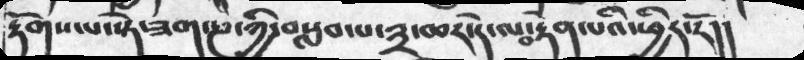རྟོགས་པ་སྟེ་ཟག་ཎ་ཀྱི་བསླབ་པ་༣་ཆར་དེ་ལ་བརྟེན་པའི་ཕྱིར་རོ།།
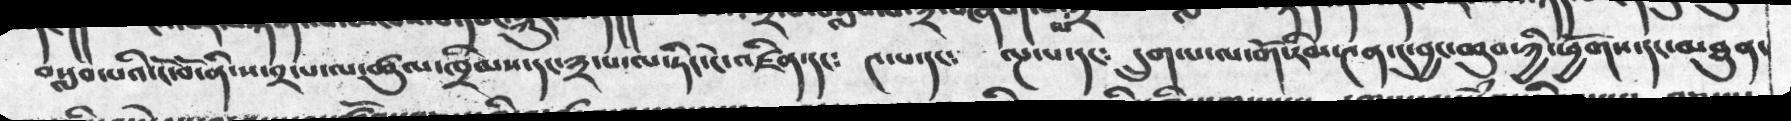བསླབ་པའི་ངོ་བོ་ནི་ས་༢་པ་ལ་ཚུལ་ཁྲིམས་དང་༣་པ་ལཏིང་ངེ་འཛིན་དང༴   ༤་པ་དང༴   ལྔ་པ་དང༴   དྲུག་པ་ལ་གོ་རིམ་༤ན་དུ་བྱང་ཆུབ་ཀྱི་ཕྱོགས་དང་མཐུན་
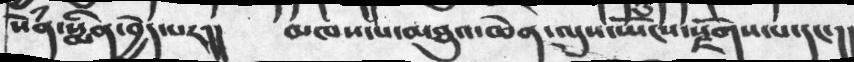སེཾན་སྨིན་བྱེད་པར།།       མཁས་པ་མཐུའ་ཆེན་ལུས་ཡོངས་སྫོགས་པ་དང་།།
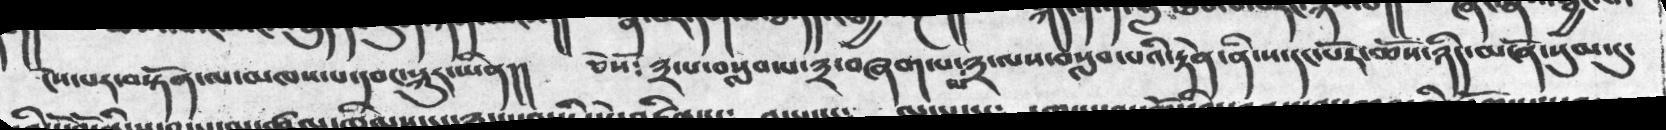ངེས་པར་བསྟོན་ལ་མཁས་པ་དབང་སྐུར་ཡིན།།    ཅེསོ༴   ༣་པ་བསླབ་པ་༣་བཞག་པ་ལ་༣་ལས་བསླབ་པའི་རྟེན་ནི་ས་དང་པོར་ཆོས་ཉིད་མངོན་སུམ་དུ་
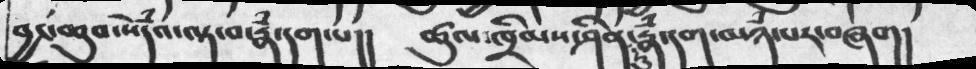བྱང་ཆུབ་སེཾདའ་ལྟ་བ་རྣཾ་དག་པ།།    ཚུལ་ཁྲིམས་ཤིན་ཏུ་རྣཾ་དག་མཉཾ་པར་བཞག།
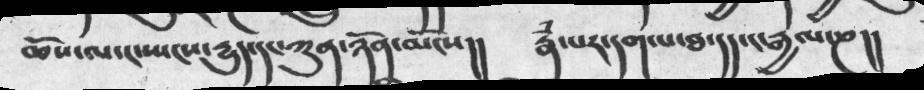ཆོས་ལ་ང་ཡངས་རྱུད་དང་ཀུན་ཉོན་མོངས།།      རྣཾ་པར་དག་པ་ཐ་དད་ང་རྒྱལ་ཎ།།
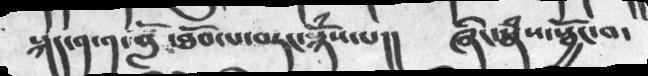སྐད་༡་༡་བློ་ཐོབ་པ་བཏང་སྙོཾས་པ།།    ཞིང་རྣཾས་སྦྱོང་བ་
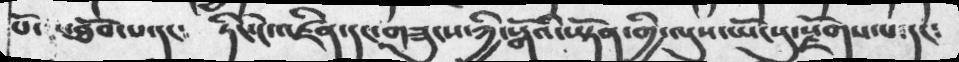པོ་  ཐོབ་པ་དང༴      ཏིང་ངེ་འཛིན་དང་གཟུངས་ཀྱི་སྒོའི་ཡྟོན་གྱི་ལུས་ཡོངསུ་སྫོགས་པ་དང༴
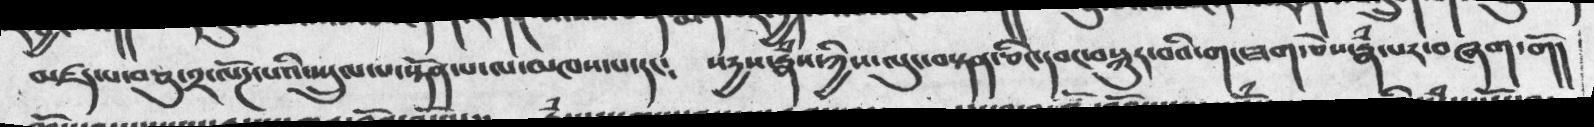མཛད་པ་བཅུ་༢་ལོཌ་པའི་ཡྲུལ་པ་སྟོན་པ་ལ་མཁས་པ་དང༴    སདྱས་རྣཾས་ཀྱིས་ལུང་བསྟན་ཅིང་དབང་བསྐུར་བའི་གང་ཟག་ཅེས་རྣཾ་པར་བཞག་གོ།
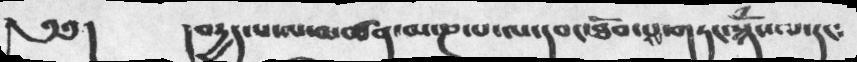༅༅།    །བརྱད་པ་ལ་མཚན་མ་ཎ་པ་ལ་དབང་ཐོབ་པས་གཏང་སྙོཾས་པ་དང༴
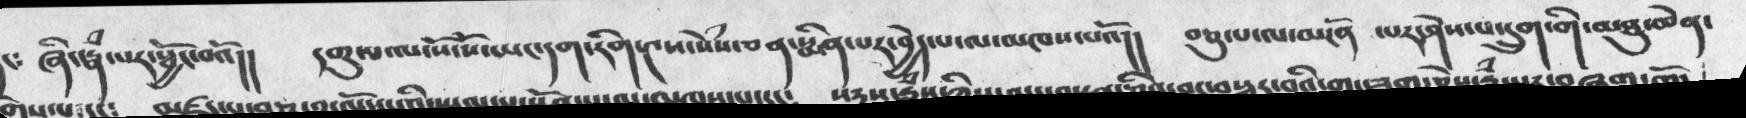ཞིང་རྣཾ་པར་སྦྱོང་བའོ།།     དགུ་པ་ལ་སོ་སོ་ཡང་དག་རིག་༤ས་སེཾས་ཅན་སྨིན་པར་བྱེད་པ་ལ་མཁས་པའོ།།   བཅུ་པ་ལ་མངོན   ་པར་ཤེས་པ་དྲུག་གི་མཐུ་ཆེན་
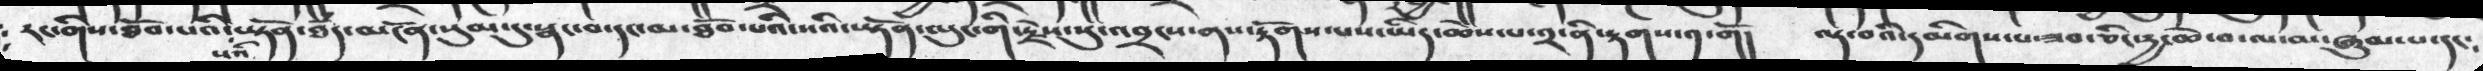རང་གིས་ཐོས་པའི་སའི་ཡྟོན་ཐཾད་མངོན་སུམ་དུ་སྣང་པ་དང་མ་ཐོབ་པའི་སའི་ཡྟོན་ལུང་གི་རྗེས་སུ་འབྲངས་ནས་རྟོགས་པས་ཡིད་ཆེས་པ་༢་ནི་རྟགས་༡་གོ།  ལྟ་བའི་དམིགས་པ་ཟབ་ཅིང་རྱ་ཆེ་བ་ལ་མ་ཞུམ་པ་དང༴
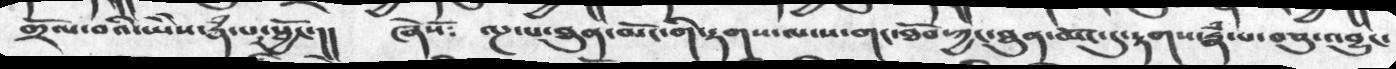གྲོལ་བའི་ཡེེས་རྣཾ་པར་སྦྱོང་།།   ཞེསོ༴   ལྔ་པ་ཐུན་མོང་གི་རྟགས་ལ་ས་གང་ཐོབ་ཀྱང་ཐུན་མོང་དུ་རྟགས་རྣཾ་པ་བཅུ་འབྱུང་
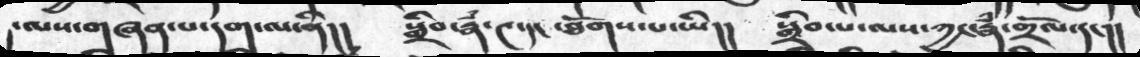ལས་གཞན་པ་དག་ལ་ནི།།   སྒྲིབ་རྣྃ་༤་དང་ཐོགས་པ་ཡི།།   སྒྲིབ་པ་ལས་ཀྱང་རྣཾ་གྲོལ་དང་།།
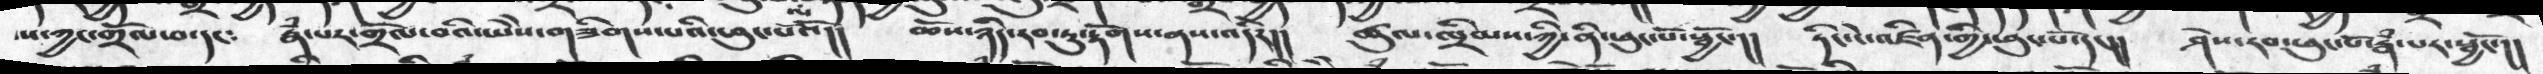ས་ཀྱང་གྲོལ་བ་དང༴   རྣཾ་པར་གྲོལ་བའི་ཡེེས་གཟིགས་པའི་ཕུང་པའོ།།   ཆོས་ཉིད་རབ་ཏུ་རྟོགས་ནས་འདོད།།  ཚུལ་ཁྲིམས་ཀྱི་ནི་ཕུང་པོ་སྦྱོང་།།   ཏིང་ངེ་འཛིན་གྱི་ཕུང་པོ་དང།།   ཤེས་རབ་ཕུང་པོ་རྣཾ་པར་སྦྱོང་།།
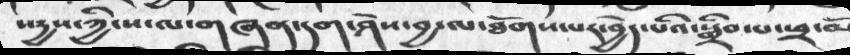སདྱས་ཀྱི་ས་ལ་གཞན་དག་ཤེས་བྱ་ལ་ཐོགས་པར་བྱེད་པའི་སྒྲིབ་པ་ཕྲ་མོ
